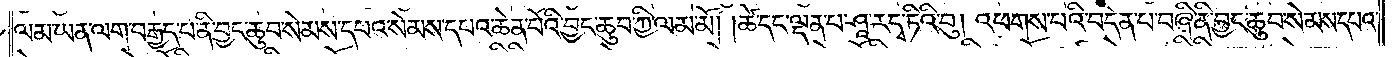ལམ་ཡན་ལག་བརྒྱད་པ་ནི་བྱང་ཆུབ་སེམས་དཔའ་སེམས་དཔའ་ཆེན་པོའི་བྱང་ཆུབ་ཀྱི་ལམ་མོ། །ཚེ་དང་ལྡན་པ་ཤཱ་ར་དྭ་ཏིའི་བུ། འཕགས་པའི་བདེན་པ་བཞི་ནི་བྱང་ཆུབ་སེམས་དཔའ་
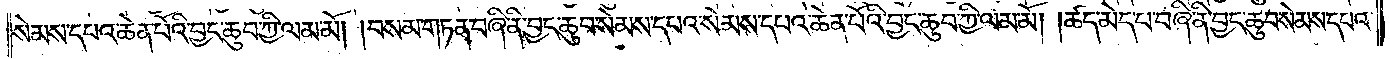སེམས་དཔའ་ཆེན་པོའི་བྱང་ཆུབ་ཀྱི་ལམ་མོ། །བསམ་གཏན་བཞི་ནི་བྱང་ཆུབ་སེམས་དཔའ་སེམས་དཔའ་ཆེན་པོའི་བྱང་ཆུབ་ཀྱི་ལམ་མོ། །ཚད་མེད་པ་བཞི་ནི་བྱང་ཆུབ་སེམས་དཔའ་
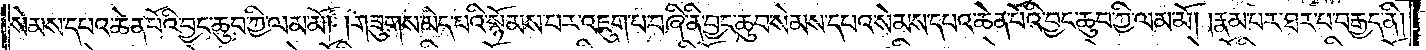སེམས་དཔའ་ཆེན་པོའི་བྱང་ཆུབ་ཀྱི་ལམ་མོ། །གཟུགས་མེད་པའི་སྙོམས་པར་འཇུག་པ་བཞི་ནི་བྱང་ཆུབ་སེམས་དཔའ་སེམས་དཔའ་ཆེན་པོའི་བྱང་ཆུབ་ཀྱི་ལམ་མོ། །རྣམ་པར་ཐར་པ་བརྒྱད་ནི།
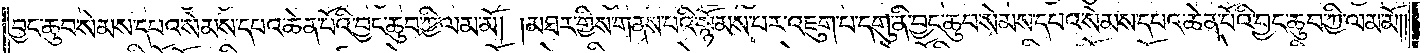བྱང་ཆུབ་སེམས་དཔའ་སེམས་དཔའ་ཆེན་པོའི་བྱང་ཆུབ་ཀྱི་ལམ་མོ། །མཐར་གྱིས་གནས་པའི་སྙོམས་པར་འཇུག་པ་དགུ་ནི་བྱང་ཆུབ་སེམས་དཔའ་སེམས་དཔའ་ཆེན་པོའི་བྱང་ཆུབ་ཀྱི་ལམ་མོ། །
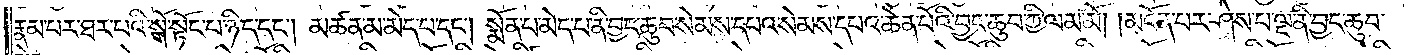རྣམ་པར་ཐར་པའི་སྒོ་སྟོང་པ་ཉིད་དང༌། མཚན་མ་མེད་པ་དང་། སྨོན་པ་མེད་པ་ནི། བྱང་ཆུབ་སེམས་དཔའ་སེམས་དཔའ་ཆེན་པོའི་བྱང་ཆུབ་ཀྱི་ལམ་མོ། །མངོན་པར་ཤེས་པ་ལྔ་ནི་བྱང་ཆུབ་
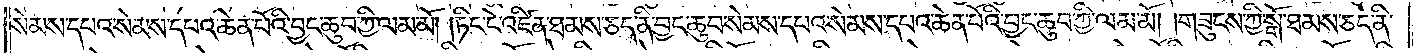སེམས་དཔའ་སེམས་དཔའ་ཆེན་པོའི་བྱང་ཆུབ་ཀྱི་ལམ་མོ། །ཏིང་ངེ་འཛིན་ཐམས་ཅད་ནི་བྱང་ཆུབ་སེམས་དཔའ་སེམས་དཔའ་ཆེན་པོའི་བྱང་ཆུབ་ཀྱི་ལམ་མོ། །གཟུངས་ཀྱི་སྒོ་ཐམས་ཅད་ནི་
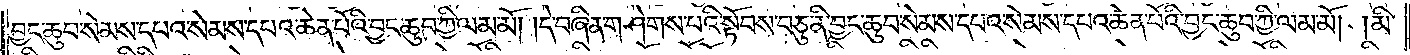བྱང་ཆུབ་སེམས་དཔའ་སེམས་དཔའ་ཆེན་པོའི་བྱང་ཆུབ་ཀྱི་ལམ་མོ། །དེ་བཞིན་གཤེགས་པའི་སྟོབས་བཅུ་ནི་བྱང་ཆུབ་སེམས་དཔའ་སེམས་དཔའ་ཆེན་པོའི་བྱང་ཆུབ་ཀྱི་ལམ་མོ། །མི་
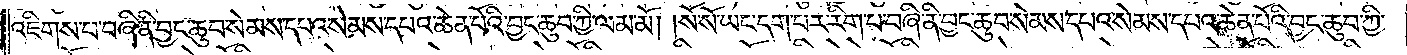འཇིགས་པ་བཞི་ནི་བྱང་ཆུབ་སེམས་དཔའ་སེམས་དཔའ་ཆེན་པོའི་བྱང་ཆུབ་ཀྱི་ལམ་མོ། །སོ་སོ་ཡང་དག་པར་རིག་པ་བཞི་ནི་བྱང་ཆུབ་སེམས་དཔའ་སེམས་དཔའ་ཆེན་པོའི་བྱང་ཆུབ་ཀྱི་
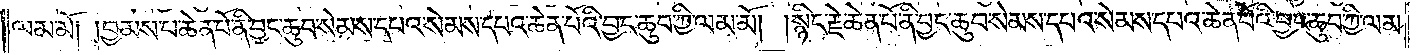ལམ་མོ། །བྱམས་པ་ཆེན་པོ་ནི་བྱང་ཆུབ་སེམས་དཔའ་སེམས་དཔའ་ཆེན་པོའི་བྱང་ཆུབ་ཀྱི་ལམ་མོ། །སྙིང་རྗེ་ཆེན་པོ་ནི་བྱང་ཆུབ་སེམས་དཔའ་སེམས་དཔའ་ཆེན་པོའི་བྱང་ཆུབ་ཀྱི་ལམ་
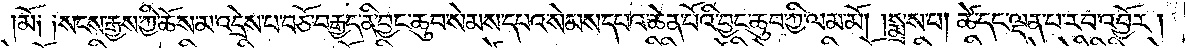མོ༏ ༏སངས་རྒྱས་ཀྱི་ཆོས་མ་འདྲེས་པ་བཅོ་བརྒྱད་ནི་བྱང་ཆུབ་སེམས་དཔའ་སེམས་དཔའ་ཆེན་པོའི་བྱང་ཆུབ་ཀྱི་ལམ་མོ། །སྨྲས་པ། ཚེ་དང་ལྡན་པ་རབ་འབྱོར།
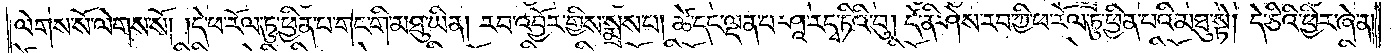ལེགས་སོ་ལེགས་སོ། །དེ་ཕ་རོལ་ཏུ་ཕྱིན་པ་གང་གི་མཐུ་ཡིན། རབ་འབྱོར་གྱིས་སྨྲས་པ། ཚེ་དང་ལྡན་པ་ཤཱ་ར་དྭ་ཏིའི་བུ། དེ་ནི་ཤེས་རབ་ཀྱི་ཕ་རོལ་ཏུ་ཕྱིན་པའི་མཐུ་སྟེ། དེ་ཅིའི་ཕྱིར་ཞེ་ན།
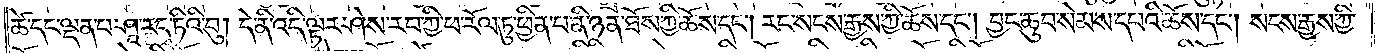ཚེ་དང་ལྡན་པ་ཤཱ་ར་དྭ་ཏིའི་བུ། དེ་ནི་འདི་ལྟར་ཤེས་རབ་ཀྱི་ཕ་རོལ་ཏུ་ཕྱིན་པ་ནི་ཉན་ཐོས་ཀྱི་ཆོས་དང༌། རང་སངས་རྒྱས་ཀྱི་ཆོས་དང༌། བྱང་ཆུབ་སེམས་དཔའི་ཆོས་དང༌། སངས་རྒྱས་ཀྱི་
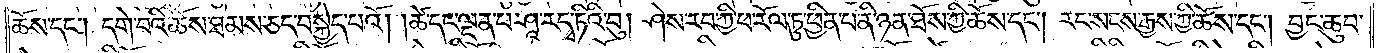ཆོས་དང༌། དགེ་བའི་ཆོས་ཐམས་ཅད་བསྐྱེད་པའོ། །ཚེ་དང་ལྡན་པ་ཤཱ་ར་དྭ་ཏིའི་བུ། ཤེས་རབ་ཀྱི་ཕ་རོལ་ཏུ་ཕྱིན་པ་ནི་ཉན་ཐོས་ཀྱི་ཆོས་དང༌། རང་སངས་རྒྱས་ཀྱི་ཆོས་དང༌། བྱང་ཆུབ་
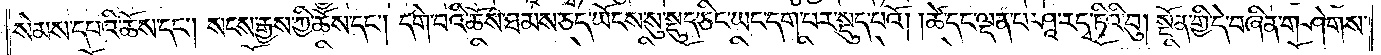སེམས་དཔའི་ཆོས་དང༌། སངས་རྒྱས་ཀྱི་ཆོས་དང༌། དགེ་བའི་ཆོས་ཐམས་ཅད་ཡོངས་སུ་སྡུད་ཅིང་ཡང་དག་པར་སྡུད་པའོ། །ཚེ་དང་ལྡན་པ་ཤཱ་ར་དྭ་ཏིའི་བུ། སྔོན་གྱི་དེ་བཞིན་གཤེགས་
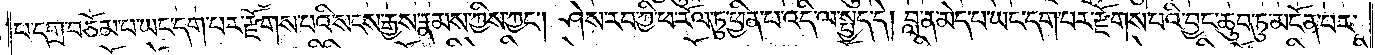པ་དགྲ་བཅོམ་པ་ཡང་དག་པར་རྫོགས་པའི་སངས་རྒྱས་རྣམས་ཀྱིས་ཀྱང༌། ཤེས་རབ་ཀྱི་ཕ་རོལ་ཏུ་ཕྱིན་པ་འདི་ལ་སྤྱད་དེ། བླ་ན་མེད་པ་ཡང་དག་པར་རྫོགས་པའི་བྱང་ཆུབ་ཏུ་མངོན་པར་
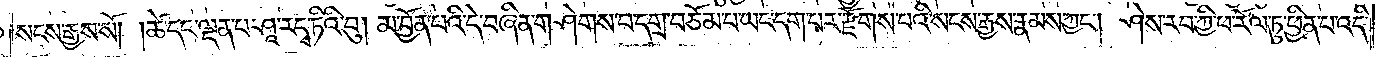སངས་རྒྱས་སོ། །ཚེ་དང་ལྡན་པ་ཤཱ་ར་དྭ་ཏིའི་བུ། མ་བྱོན་པའི་དེ་བཞིན་གཤེགས་པ་དགྲ་བཅོམ་པ་ཡང་དག་པར་རྫོགས་པའི་སངས་རྒྱས་རྣམས་ཀྱང༌། ཤེས་རབ་ཀྱི་ཕ་རོལ་ཏུ་ཕྱིན་པ་འདི་
